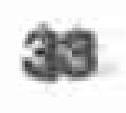33
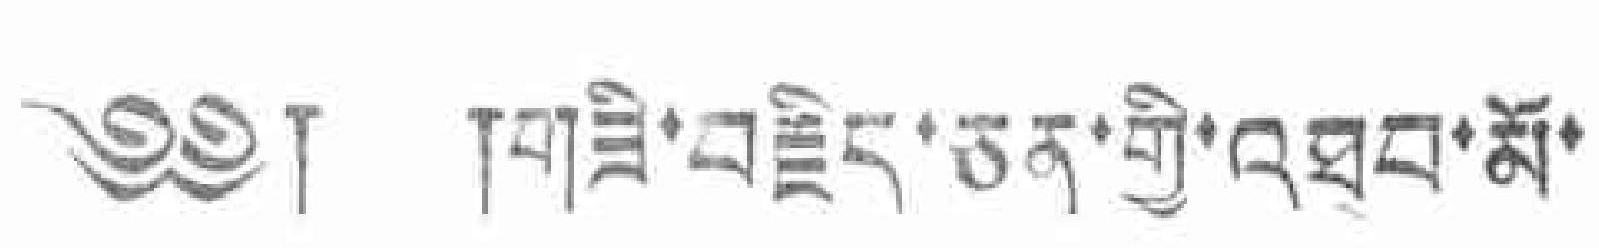༄༅། །གཟི་བརྗིད་ཅན་གྱི་འཐབ་མོ་
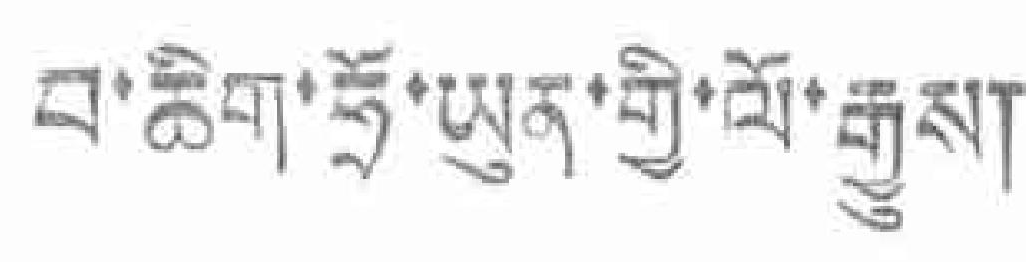བ་ཆིག་ཧྲོ་ཡུན་གྱི་ལོ་རྒྱུས།
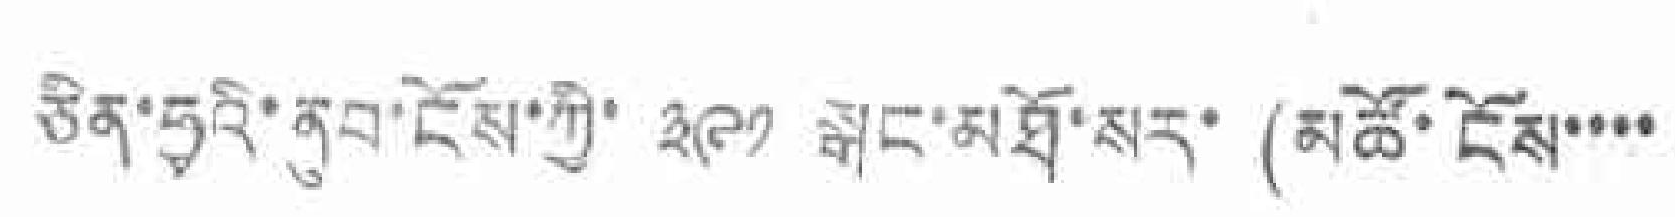ཅིན་ཧྭའི་ནུབ་ངོས་ཀྱི་ ༣༩༡ སྒང་མཐོ་སར་ (མཚོ་ངོས་་་་
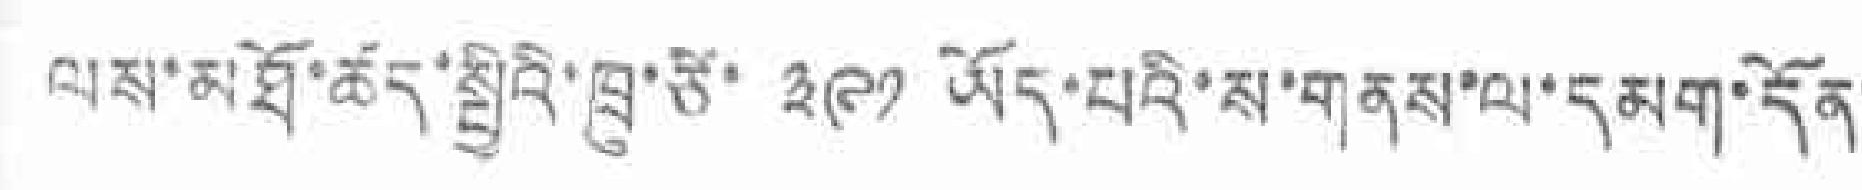ལས་མཐོ་ཚད་སྤྱིའི་ཁྲུ་ཙི་ ༣༩༡ ཡོད་པའི་ས་གནས་ལ་དམག་དོན་
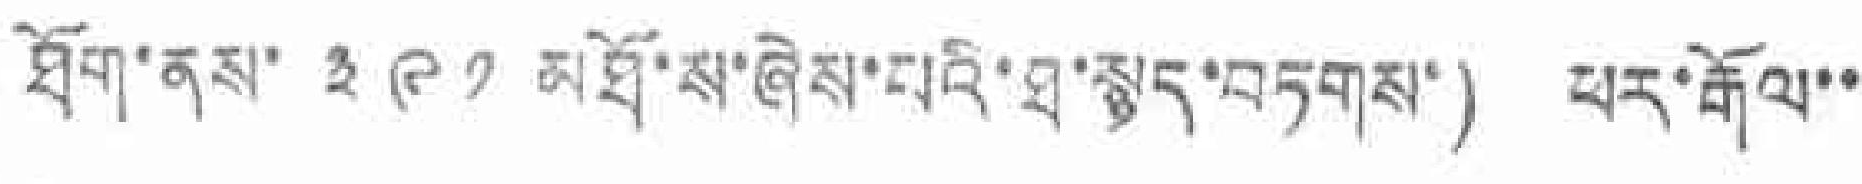ཐོག་ནས་ ༣༩༡ མཐོ་ས་ཞེས་པའི་ཐ་སྙད་བཏགས་) ཕར་རྒོལ་་
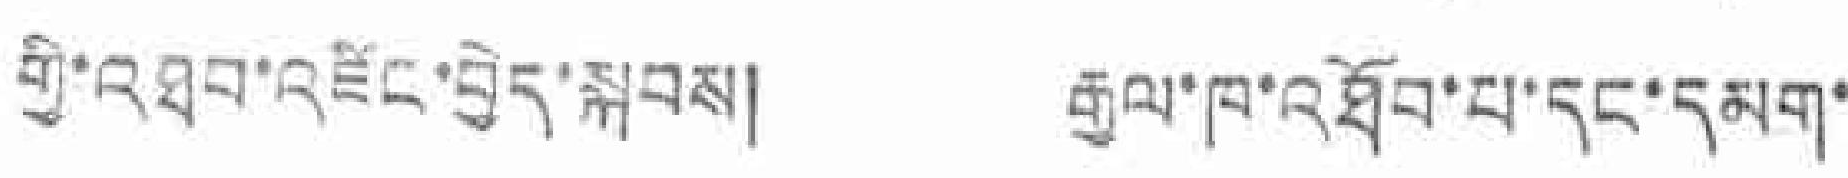གྱི་འཐབ་འཛིང་བྱེད་སྐབས། རྒྱལ་ཁ་འཐོབ་པ་དང་དམག་
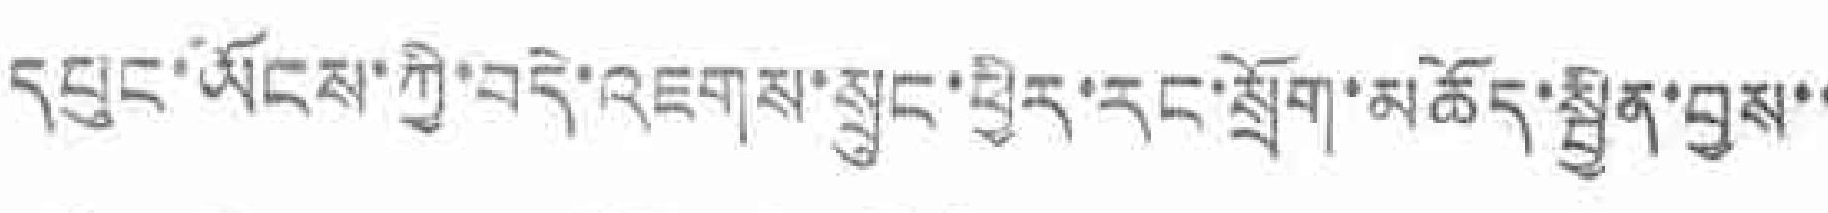དཔུང་ཡོངས་ཀྱི་བདེ་འཇགས་སྲུང་ཕྱིར་རང་སྲོག་མཆོད་སྦྱིན་བྱས་་
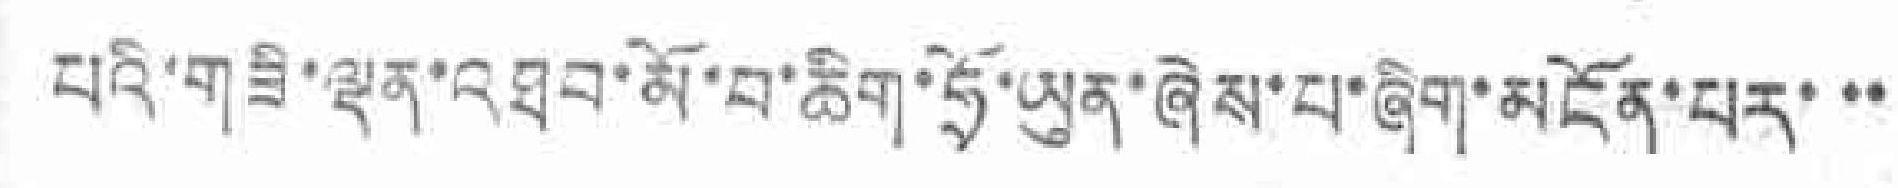པའི་གཟི་ལྡན་འཐབ་མོ་བ་ཆིག་ཧྲོ་ཡུན་ཞེས་པ་ཞིག་མངོན་པར་་་
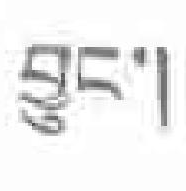བྱུང་།
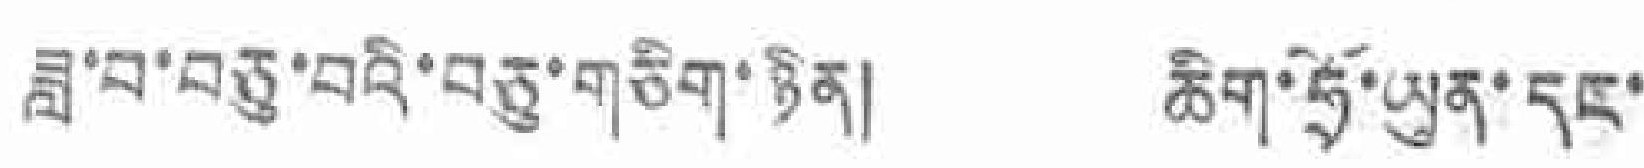ཟླ་བ་བཅུ་བའི་བཅུ་གཅིག་ཉིན། ཆིག་ཧྲོ་ཡུན་དང་
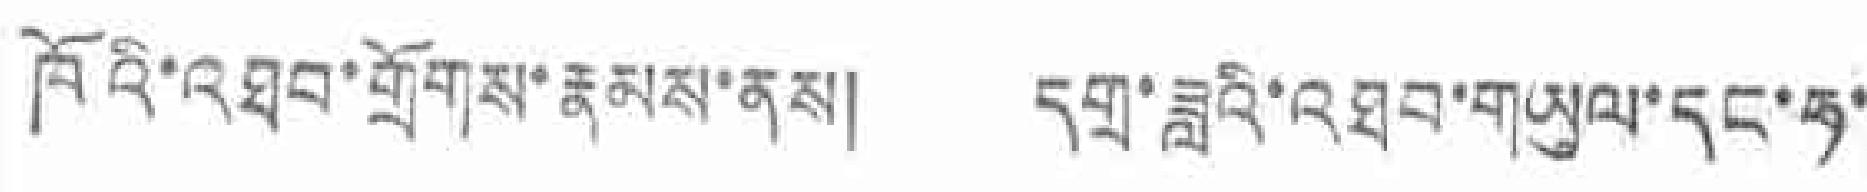ཁོའི་འཐབ་གྲོགས་རྣམས་ནས། དགྲ་ཟླའི་འཐབ་གཡུལ་དང་ཧ་
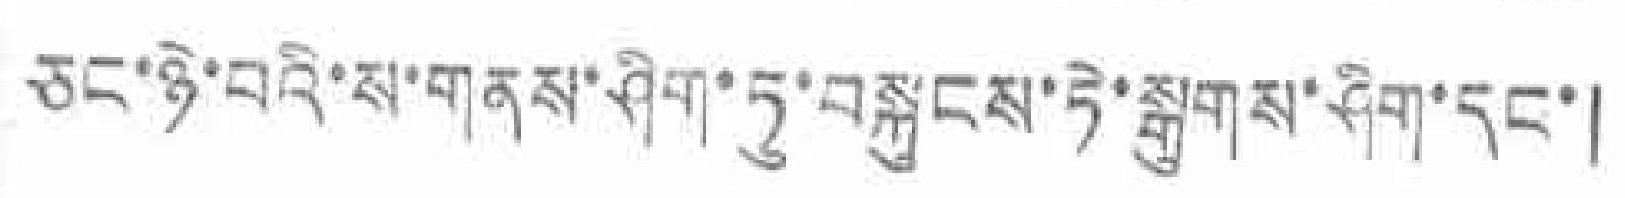ཅང་ཉེ་བའི་ས་གནས་ཤིག་ཏུ་བསྐྱངས་ཏེ་སྒུགས་ཤིག་དང་།
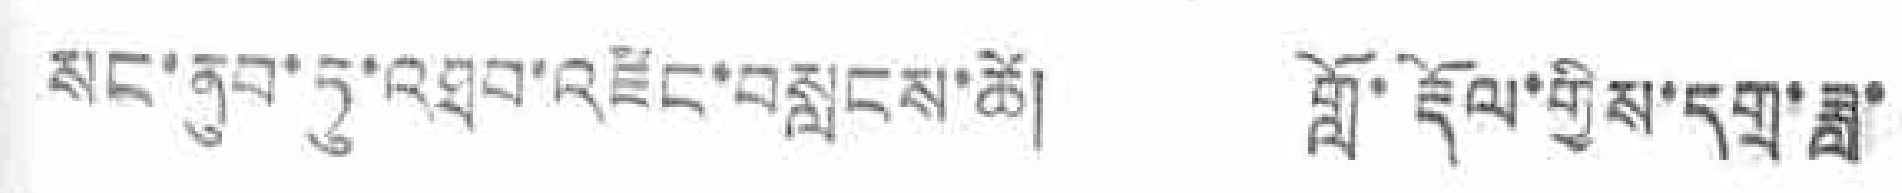སང་ནུབ་ཏུ་འཐབ་འཛོང་བསླངས་ཚེ། གློ་རྡོལ་གྱིས་དགྲ་ཟླ་
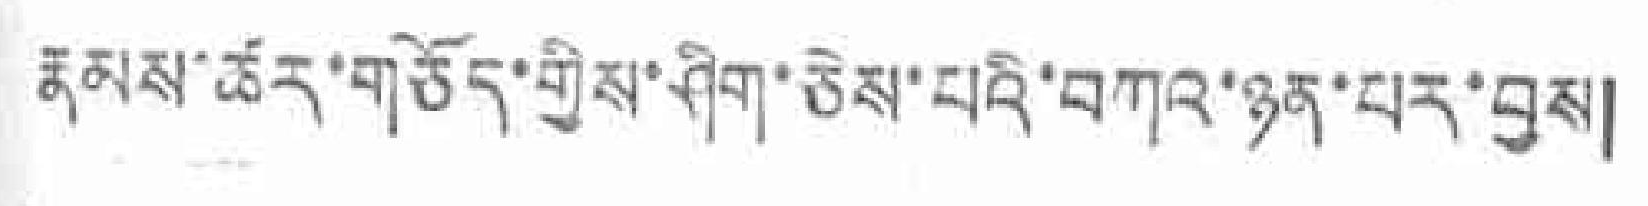རྣམས་ཚར་གཅོད་གྱིས་ཤིག་ཅེས་པའི་བཀའ་ཉན་པར་བྱས།
